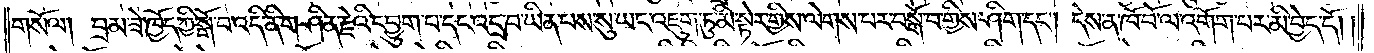གསོལ། བྲམ་ཟེ་ཁྱོད་ཀྱི་སྒོ་བ་འདི་ནི་གཤིན་རྗེའི་དབྱུག་པ་དང་འདྲ་བ་ཡིན་པས་སུ་ཡང་འཇུག་ཏུ་མི་སྟེར་གྱིས་ལེགས་པར་བསྒོ་བ་གྱིས་ཤིག་དང༌། དེས་ན་ཁོ་བོ་ལ་འགོག་པར་མི་བྱེད་དོ། །
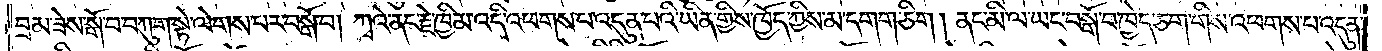བྲམ་ཟེས་སྒོ་བ་བཀུག་སྟེ་ལེགས་པར་བསྒོ་བ། ཀྭའེ་ནང་རྗེ་ཁྱིམ་འདི་འཕགས་པ་འདུན་པའི་ཡིན་གྱིས་ཁྱོད་ཀྱིས་མ་དགག་ཅིག །ནང་མི་ལ་ཡང་བསྒོ་བ་ཁྱེད་ཅག་གིས་འཕགས་པ་འདུན་
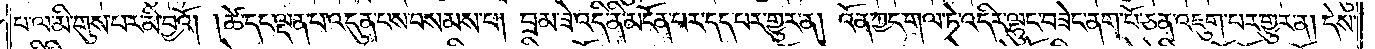པ་ལ་མི་གུས་པར་མི་བྱའོ། །ཚེ་དང་ལྡན་པ་འདུན་པས་བསམས་པ། བྲམ་ཟེ་འདི་ནི་མངོན་པར་དད་པར་གྱུར་ན། འོན་ཀྱང་གལ་ཏེ་འདིར་ལྷུང་བཟེད་ནག་པོ་ཅན་འཇུག་པར་གྱུར་ན། དེས་
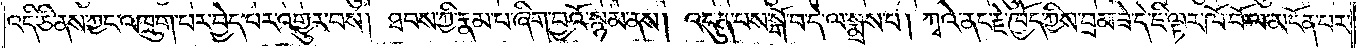འདི་ཅི་ནས་ཀྱང་འཁྲུག་པར་བྱེད་པར་འགྱུར་བས། ཐབས་ཀྱི་རྣམ་པ་ཞིག་བྱའོ་སྙམ་ནས། འདུན་པས་སྒོ་བ་དེ་ལ་སྨྲས་པ། ཀྭའེ་ནང་རྗེ་ཁྱོད་ཀྱིས་བྲམ་ཟེ་དེ་ཇི་ལྟར་ཁོ་བོ་ལ་མངོན་པར་
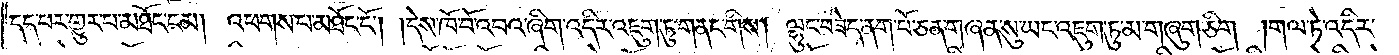དད་པར་གྱུར་པ་མཐོང་ངམ། འཕགས་པ་མཐོང་ངོ༌། །དེས་ཁོ་བོ་འབའ་ཞིག་འདིར་འཇུག་ཏུ་གནང་གིས། ལྷུང་བཟེད་ནག་པོ་ཅན་གཞན་སུ་ཡང་འཇུག་ཏུ་མ་གཞུག་ཅིག །གལ་ཏེ་འདིར་
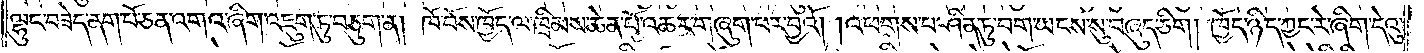ལྷུང་བཟེད་ནག་པོ་ཅན་འགའ་ཞིག་འཇུག་ཏུ་བཅུག་ན། ཁོ་བོས་ཁྱོད་ལ་ཁྲིམས་ཆེན་པོ་འཆར་གཞུག་པར་བྱའོ། །འཕགས་པ་ཤིན་ཏུ་བག་ཡངས་སུ་བཞུད་ཅིག །ཁྱོད་ཉིད་ཀྱང་རེ་ཞིག་དེའུ་
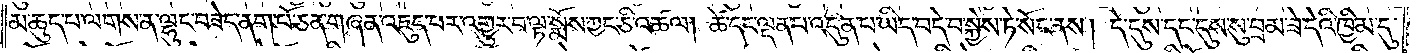མ་ཆུད་པ་ལགས་ན་ལྷུང་བཟེད་ནག་པོ་ཅན་གཞན་འཇུད་པར་འགྱུར་བ་ལྟ་སྨོས་ཀྱང་ཅི་འཚལ། ཚེ་དང་ལྡན་པ་འདུན་པ་ཡིད་བདེ་བ་སྐྱེས་ཏེ་སོང་ནས། དེ་དུས་དང་དུས་སུ་བྲམ་ཟེ་དེའི་ཁྱིམ་དུ་
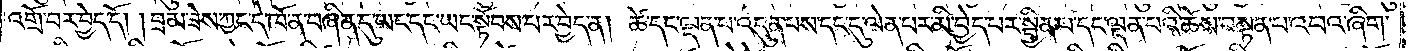འགྲོ་བར་བྱེད་དོ། །བྲམ་ཟེས་ཀྱང་དེ་ཁོ་ན་བཞིན་དུ་ཡང་དང་ཡང་སྟོབས་པར་བྱེད་ན། ཚེ་དང་ལྡན་པ་འདུན་པས་དང་དུ་ལེན་པར་མི་བྱེད་པར་སྦྱིན་པ་དང་ལྡན་པའི་ཆོས་བསྟན་པ་འབའ་ཞིག་
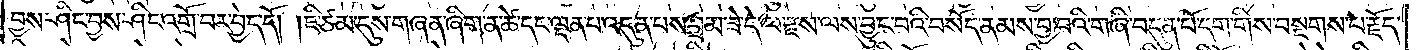བྱས་ཤིང་བྱས་ཤིང་འགྲོ་བར་བྱེད་དོ། །ཇི་ཙམ་དུས་གཞན་ཞིག་ན་ཚེ་དང་ལྡན་པ་འདུན་པས་བྲམ་ཟེ་དེ་ལ་རྫས་ལས་བྱུང་བའི་བསོད་ནམས་བྱ་བའི་གཞི་བདུན་པོ་དག་གིས་བསྔགས་པ་རྗོད་
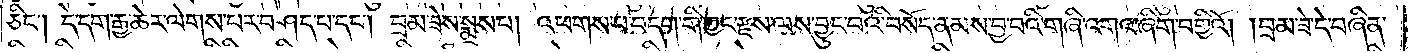ཅིང༌། དེ་དག་རྒྱ་ཆེར་ལེགས་པར་བཤད་པ་དང༌། བྲམ་ཟེས་སྨྲས་པ། འཕགས་པ་བདག་གི་ཀྱང་རྫས་ལས་བྱུང་བའི་བསོད་ནམས་བྱ་བའི་གཞི་འགའ་ཞིག་བགྱིའོ། །བྲམ་ཟེ་དེ་བཞིན་
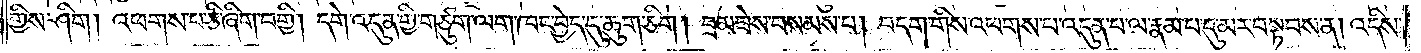གྱིས་ཤིག །འཕགས་པ་ཅི་ཞིག་བགྱི། དགེ་འདུན་གྱི་གཙུག་ལག་ཁང་བྱེད་དུ་ཆུག་ཅིག །བྲམ་ཟེས་བསམས་པ། བདག་གིས་འཕགས་པ་འདུན་པ་ལ་རྣམ་པ་དུ་མར་བསྟབས་ན། འདིས་
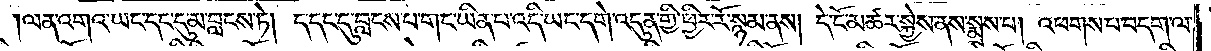ལན་འགའ་ཡང་དང་དུ་མ་བླངས་ཏེ། ད་དང་དུ་བླངས་པ་གང་ཡིན་པ་འདི་ཡང་དགེ་འདུན་གྱི་ཕྱིར་རོ་སྙམ་ནས། དེ་ངོ་མཚར་སྐྱེས་ནས་སྨྲས་པ། འཕགས་པ་བདག་ལ་
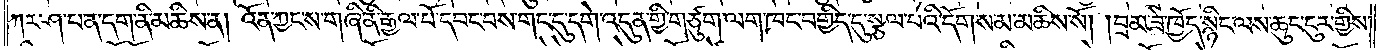ཀར་ཤ་པ་ན་དག་ནི་མཆིས་ན། འོན་ཀྱང་ས་གཞི་ནི་རྒྱལ་པོ་དབང་བས་གང་དུ་དགེ་འདུན་གྱི་གཙུག་ལག་ཁང་བགྱིད་དུ་སྩལ་བའི་དོགས་མ་མཆིས་སོ། །བྲམ་ཟེ་ཁྱོད་སྙིང་ལས་ཆུང་ངུར་གྱིས་
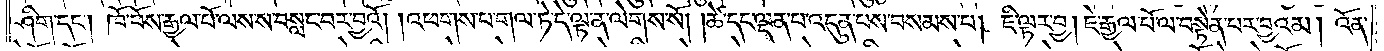ཤིག་དང༌། ཁོ་བོས་རྒྱལ་པོ་ལས་ས་བསླང་བར་བྱའོ། །འཕགས་པ་གལ་ཏེ་དེ་ལྟ་ན་ལེགས་སོ། །ཚེ་དང་ལྡན་པ་འདུན་པས་བསམས་པ། ཇི་ལྟར་བྱ། ཇེ་རྒྱལ་པོ་ལ་བསྟེན་པར་བྱའམ། འོན་
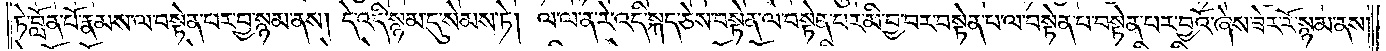ཏེ་བློན་པོ་རྣམས་ལ་བསྟེན་པར་བྱ་སྙམ་ནས། དེ་འདི་སྙམ་དུ་སེམས་ཏེ། ལ་ལ་ན་རེ་འདི་སྐད་ཅེས་བསྟེན་ལ་བསྟེན་པར་མི་བྱ་བར་བསྟེན་པ་ལ་བསྟེན་པ་བསྟེན་པར་བྱའོ་ཞེས་ཟེར་རོ་སྙམ་ནས།
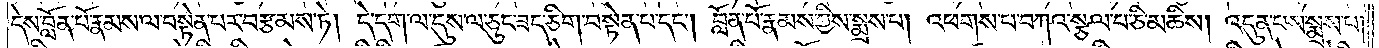དེས་བློན་པོ་རྣམས་ལ་བསྟེན་པར་བརྩམས་ཏེ། དེ་དག་ལ་དུས་ལ་ཅུང་ཟད་ཅིག་བསྟེན་པ་དང༌། བློན་པོ་རྣམས་ཀྱིས་སྨྲས་པ། འཕགས་པ་བཀའ་སྩལ་པ་ཅི་མཆིས། འདུན་པས་སྨྲས་པ།
